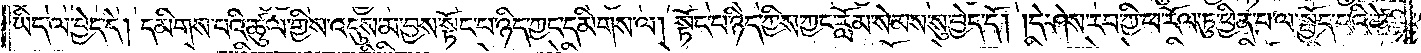ཡིད་ལ་བྱེད་དེ། དམིགས་པའི་ཚུལ་གྱིས་འདུས་མ་བྱས་སྟོང་པ་ཉིད་ཀྱང་དམིགས་ལ། སྟོང་པ་ཉིད་ཀྱིས་ཀྱང་རློམ་སེམས་སུ་བྱེད་དོ། །དེ་ཤེས་རབ་ཀྱི་ཕ་རོལ་ཏུ་ཕྱིན་པ་ལ་སྤྱོད་པའི་ཚེ་
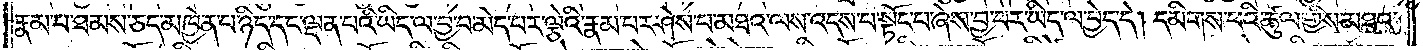རྣམ་པ་ཐམས་ཅད་མཁྱེན་པ་ཉིད་དང་ལྡན་པའི་ཡིད་ལ་བྱ་བ་མེད་པར་ལྕེའི་རྣམ་པར་ཤེས་པ་མཐའ་ལས་འདས་པ་སྟོང་པ་ཞེས་བྱ་བར་ཡིད་ལ་བྱེད་དེ། དམིགས་པའི་ཚུལ་གྱིས་མཐའ་
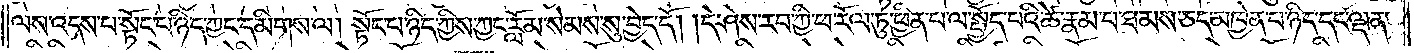ལས་འདས་པ་སྟོང་པ་ཉིད་ཀྱང་དམིགས་ལ། སྟོང་པ་ཉིད་ཀྱིས་ཀྱང་རློམ་སེམས་སུ་བྱེད་དོ། །དེ་ཤེས་རབ་ཀྱི་ཕ་རོལ་ཏུ་ཕྱིན་པ་ལ་སྤྱོད་པའི་ཚེ་རྣམ་པ་ཐམས་ཅད་མཁྱེན་པ་ཉིད་དང་ལྡན་
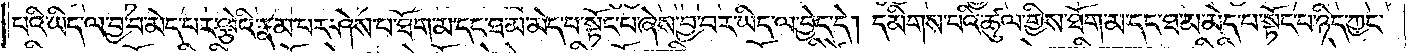པའི་ཡིད་ལ་བྱ་བ་མེད་པར་ལྕེའི་རྣམ་པར་ཤེས་པ་ཐོག་མ་དང་ཐ་མ་མེད་པ་སྟོང་པ་ཞེས་བྱ་བར་ཡིད་ལ་བྱེད་དེ། དམིགས་པའི་ཚུལ་གྱིས་ཐོག་མ་དང་ཐ་མ་མེད་པ་སྟོང་པ་ཉིད་ཀྱང་
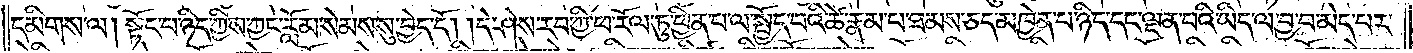དམིགས་ལ། སྟོང་པ་ཉིད་ཀྱིས་ཀྱང་རློམ་སེམས་སུ་བྱེད་དོ། །དེ་ཤེས་རབ་ཀྱི་ཕ་རོལ་ཏུ་ཕྱིན་པ་ལ་སྤྱོད་པའི་ཚེ་རྣམ་པ་ཐམས་ཅད་མཁྱེན་པ་ཉིད་དང་ལྡན་པའི་ཡིད་ལ་བྱ་བ་མེད་པར་
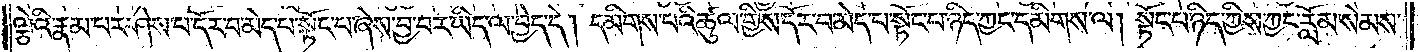ལྕེའི་རྣམ་པར་ཤེས་པ་དོར་བ་མེད་པ་སྟོང་པ་ཞེས་བྱ་བར་ཡིད་ལ་བྱེད་དེ། དམིགས་པའི་ཚུལ་གྱིས་དོར་བ་མེད་པ་སྟོང་པ་ཉིད་ཀྱང་དམིགས་ལ། སྟོང་པ་ཉིད་ཀྱིས་ཀྱང་རློམ་སེམས་
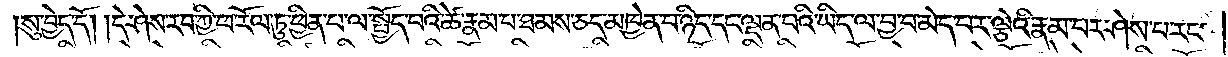སུ་བྱེད་དོ། །དེ་ཤེས་རབ་ཀྱི་ཕ་རོལ་ཏུ་ཕྱིན་པ་ལ་སྤྱོད་པའི་ཚེ་རྣམ་པ་ཐམས་ཅད་མཁྱེན་པ་ཉིད་དང་ལྡན་པའི་ཡིད་ལ་བྱ་བ་མེད་པར་ལྕེའི་རྣམ་པར་ཤེས་པ་རང་
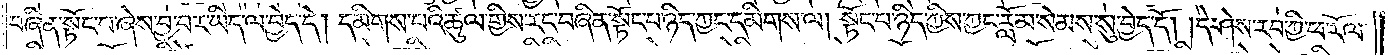བཞིན་སྟོང་པ་ཞེས་བྱ་བར་ཡིད་ལ་བྱེད་དེ། དམིགས་པའི་ཚུལ་གྱིས་རང་བཞིན་སྟོང་པ་ཉིད་ཀྱང་དམིགས་ལ། སྟོང་པ་ཉིད་ཀྱིས་ཀྱང་རློམ་སེམས་སུ་བྱེད་དོ། །དེ་ཤེས་རབ་ཀྱི་ཕ་རོལ་
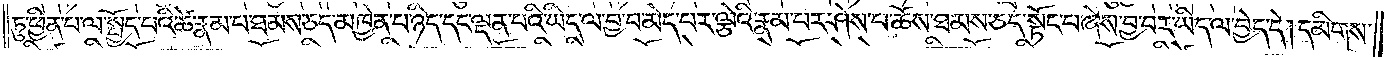ཏུ་ཕྱིན་པ་ལ་སྤྱོད་པའི་ཚེ་རྣམ་པ་ཐམས་ཅད་མཁྱེན་པ་ཉིད་དང་ལྡན་པའི་ཡིད་ལ་བྱ་བ་མེད་པར་ལྕེའི་རྣམ་པར་ཤེས་པ་ཆོས་ཐམས་ཅད་སྟོང་པ་ཞེས་བྱ་བར་ཡིད་ལ་བྱེད་དེ། དམིགས་
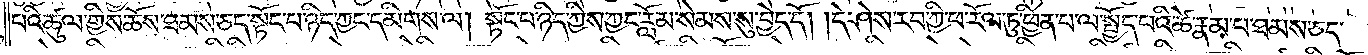པའི་ཚུལ་གྱིས་ཆོས་ཐམས་ཅད་སྟོང་པ་ཉིད་ཀྱང་དམིགས་ལ། སྟོང་པ་ཉིད་ཀྱིས་ཀྱང་རློམ་སེམས་སུ་བྱེད་དོ། །དེ་ཤེས་རབ་ཀྱི་ཕ་རོལ་ཏུ་ཕྱིན་པ་ལ་སྤྱོད་པའི་ཚེ་རྣམ་པ་ཐམས་ཅད་
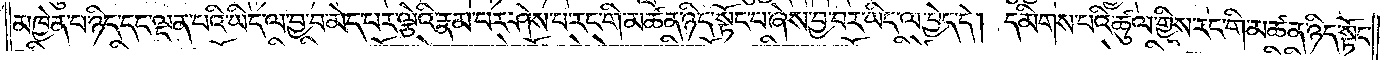མཁྱེན་པ་ཉིད་དང་ལྡན་པའི་ཡིད་ལ་བྱ་བ་མེད་པར་ལྕེའི་རྣམ་པར་ཤེས་པ་རང་གི་མཚན་ཉིད་སྟོང་པ་ཞེས་བྱ་བར་ཡིད་ལ་བྱེད་དེ། དམིགས་པའི་ཚུལ་གྱིས་རང་གི་མཚན་ཉིད་སྟོང་
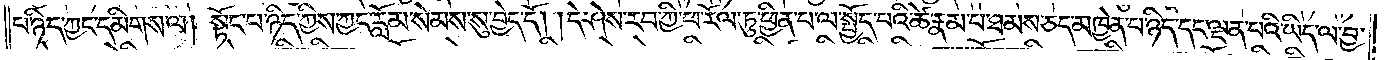པ་ཉིད་ཀྱང་དམིགས་ལ། སྟོང་པ་ཉིད་ཀྱིས་ཀྱང་རློམ་སེམས་སུ་བྱེད་དོ། །དེ་ཤེས་རབ་ཀྱི་ཕ་རོལ་ཏུ་ཕྱིན་པ་ལ་སྤྱོད་པའི་ཚེ་རྣམ་པ་ཐམས་ཅད་མཁྱེན་པ་ཉིད་དང་ལྡན་པའི་ཡིད་ལ་བྱ་
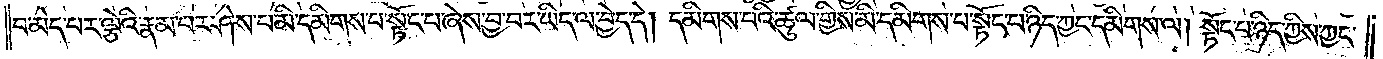བ་མེད་པར་ལྕེའི་རྣམ་པར་ཤེས་པ་མི་དམིགས་པ་སྟོང་པ་ཞེས་བྱ་བར་ཡིད་ལ་བྱེད་དེ། དམིགས་པའི་ཚུལ་གྱིས་མི་དམིགས་པ་སྟོང་པ་ཉིད་ཀྱང་དམིགས་ལ། སྟོང་པ་ཉིད་ཀྱིས་ཀྱང་
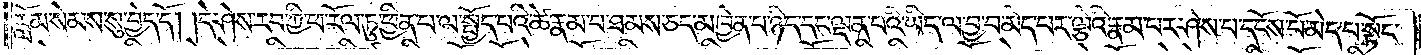རློམ་སེམས་སུ་བྱེད་དོ། །དེ་ཤེས་རབ་ཀྱི་ཕ་རོལ་ཏུ་ཕྱིན་པ་ལ་སྤྱོད་པའི་ཚེ་རྣམ་པ་ཐམས་ཅད་མཁྱེན་པ་ཉིད་དང་ལྡན་པའི་ཡིད་ལ་བྱ་བ་མེད་པར་ལྕེའི་རྣམ་པར་ཤེས་པ་དངོས་པོ་མེད་པ་སྟོང་
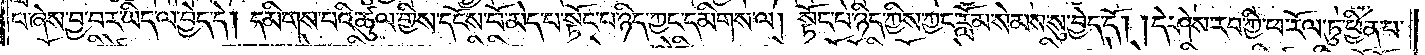པ་ཞེས་བྱ་བར་ཡིད་ལ་བྱེད་དེ། དམིགས་པའི་ཚུལ་གྱིས་དངོས་པོ་མེད་པ་སྟོང་པ་ཉིད་ཀྱང་དམིགས་ལ། སྟོང་པ་ཉིད་ཀྱིས་ཀྱང་རློམ་སེམས་སུ་བྱེད་དོ། །དེ་ཤེས་རབ་ཀྱི་ཕ་རོལ་ཏུ་ཕྱིན་པ་
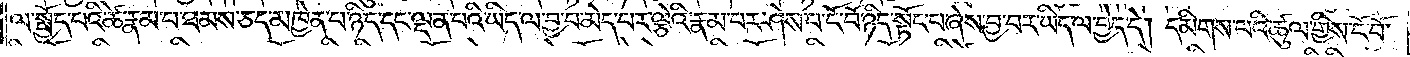ལ་སྤྱོད་པའི་ཚེ་རྣམ་པ་ཐམས་ཅད་མཁྱེན་པ་ཉིད་དང་ལྡན་པའི་ཡིད་ལ་བྱ་བ་མེད་པར་ལྕེའི་རྣམ་པར་ཤེས་པ་ངོ་བོ་ཉིད་སྟོང་པ་ཞེས་བྱ་བར་ཡིད་ལ་བྱེད་དེ། དམིགས་པའི་ཚུལ་གྱིས་ངོ་བོ་
